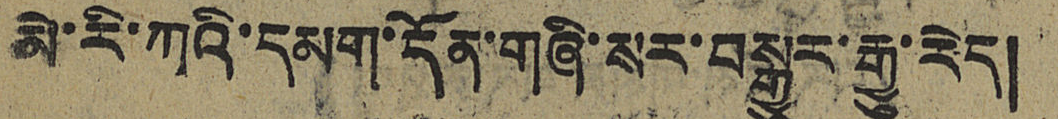མེ་རི་ཀའི་དམག་དོན་གཞི་སར་བསྒྱུར་རྒྱུ་རེད།
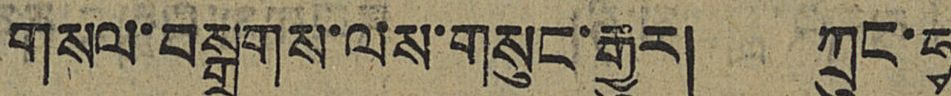གསལ་བསྒྲགས་ལས་གསུང་རྒྱུར། ཀྲུང་ཧྭ
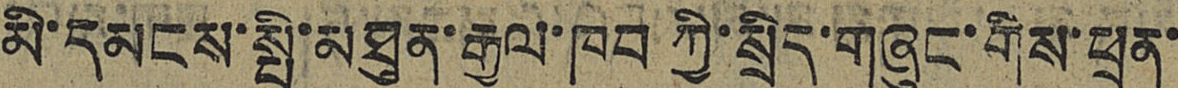མི་དམངས་སྤྱི་མཐུན་རྒྱལ་ཁབ ཀྱི་སྲིད་གཞུང་གིས་ཕྲན་
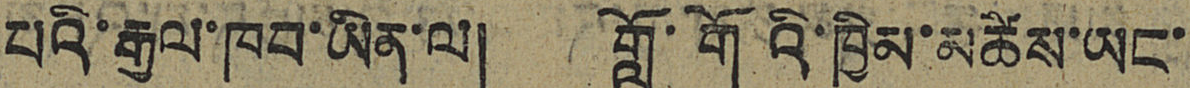པའི་རྒྱལ་ཁབ་ཡིན་ལ། གློ་གོའི་ཁྱིམ་མཚིས་ཡང་
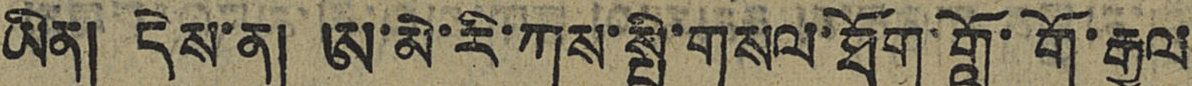ཡིན། དེས་ན། ཨ་མེ་རི་ཀས་སྤྱི་གསལ་ཐོག་གློ་གོ་རྒྱལ
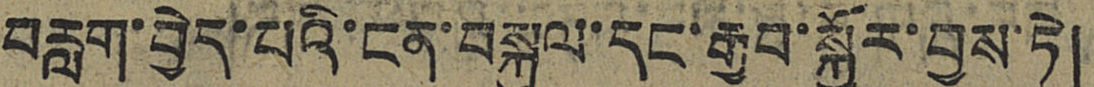བརླག་བྱེད་པའི་ངན་བསྐུལ་དང་རྒྱབ་སྐྱོར་བྱས་ཏེ།
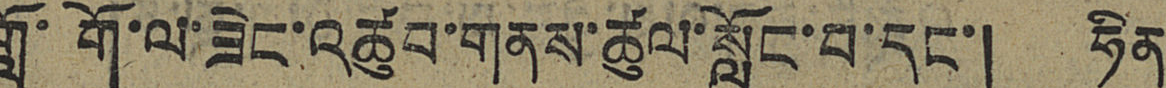གློ་གོ་ལ་ཟེང་འཚུབ་གནས་ཚུལ་སློང་བ་དང་། ཧིན
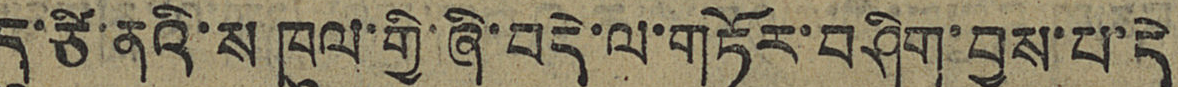དུ་ཙི་ནའི་ས ཁུལ་གྱི་ཞི་བདེ་ལ་གཏོར་བཤིག་བྱས་པ་དེ
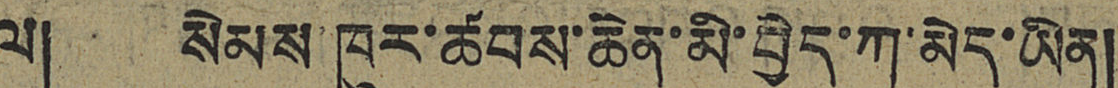ལ། སེམས་ཁུར་ཚབས་ཆེན་མི་བྱེད་ཀ་མེད་ཡིན།
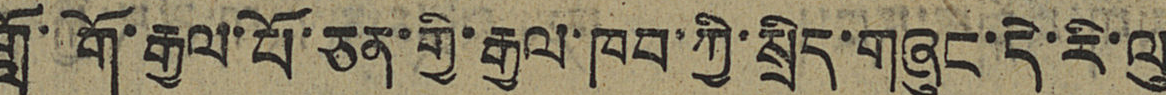གློ་གོ་རྒྱལ་པོ་ཅན་གྱི་རྒྱལ་ཁབ་ཀྱི་སྲིད་གཞུང་དེ་རི་ལུ
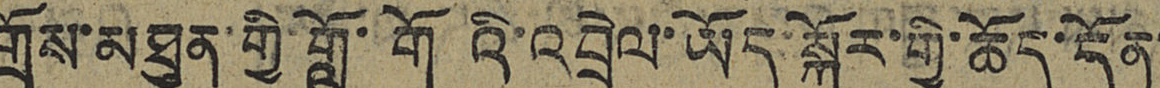གྲོས་མཐུན་གྱི གློ་གོའི་འབྲེལ་ཡོད་སྐོར་གྱི་ཆོད་དོན་
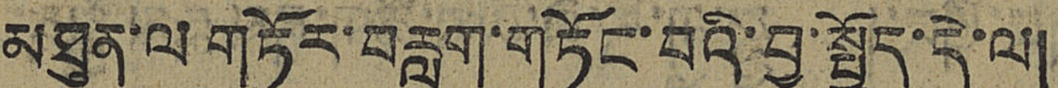མཐུན་ལ གཏོར་བརླག་གཏོང་བའི་བྱ་སྤྱོད་དེ་ལ།
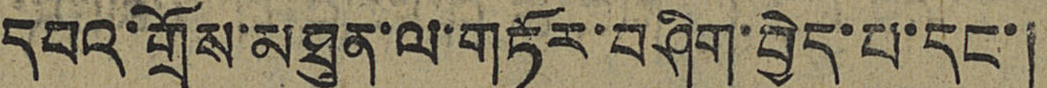དབའ་གྲོས་མཐུན་ལ་གཏོར་བཤིག་བྱེད་པ་དང་།
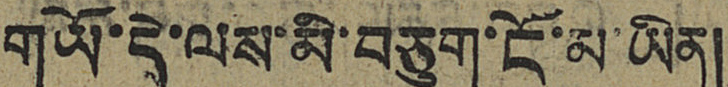གཡོ་དེ་ལས་མི་བཅུག་ངོ་མ་ཡིན།
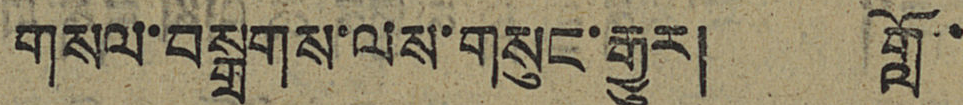གསལ་བསྒྲགས་ལས་གསུང་རྒྱུར། གློ་
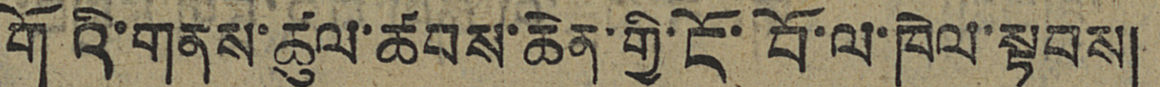གོའི་གནས་ཚུལ་ཚབས་ཆེན་གྱི་ངོ་བོ་ལ་ཁེལ་སྟབས།
